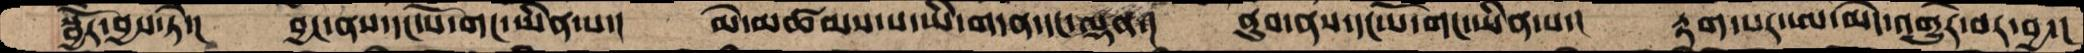སྦྱོར་བྱས་ཏེ་།  བྱང་ནས་དང་པོ་གང་ཡིན་པ་།  མེ་མཚམས་ས་ཡི་གདན་དང་ལྡན་།  ནུབ་ནས་དང་པོ་གང་ཡིན་པ་།  རྟག་པར་ཨ་མེད་འགྱུར་བར་བྱ་།
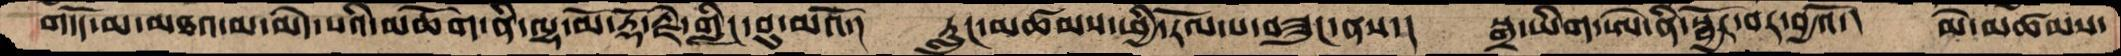གདོད་མ་མཐའ་མ་མེད་པའི་མཆོག་ནི་ལྷ་མོ་རྡོ་རྗེ་གླིང་བུ་མའོ་། རླུང་མཚམས་ཕྱི་རོལ་ས་བཟུང་ནས་།  སྒྲ་ཡིག་ཨེ་ནི་སྦྱོར་བར་བྱའོ་།  མེ་མཚམས་
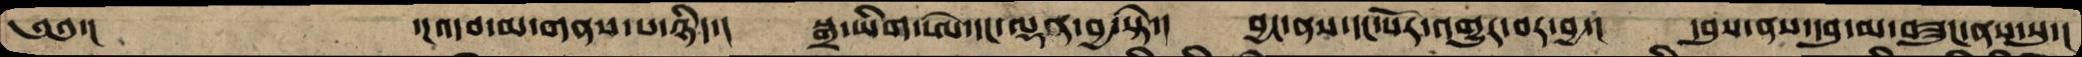༄༅་།     ་།འདབ་མ་གནས་པ་ཉིད་།  སྒྲ་ཡིག་ཨེ་དང་ལྡན་བྱ་སྟེ་།  བྱང་ནས་དང་པོར་འགྱུར་བར་བྱ་།  དབུས་ནས་དབུ་མ་བཟུང་ནས་སུ་།
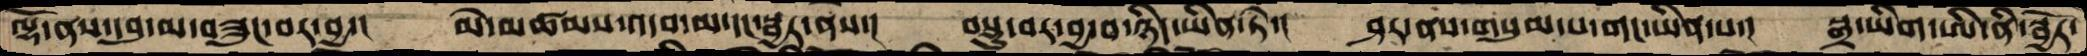ལྷོ་ནས་དབུ་མ་བཟུང་བར་བྱ་།  མེ་མཚམས་འདབ་མ་དང་སྦྱར་ནས་།  བསྡུ་བར་བྱ་བ་ཉིད་ཡིན་ཏེ་།  ཤར་ནས་གསུམ་པ་གང་ཡིན་པ་།  སྒྲ་ཡིག་ཨི་ནི་སྦྱོར་
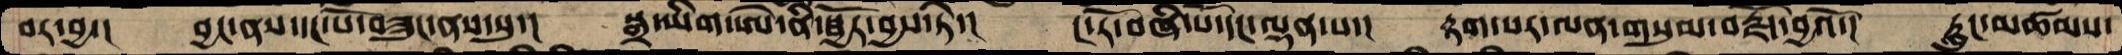བར་བྱ་།  བྱང་ནས་དང་པོ་བཟུང་ནས་སུ་།  སྒྲ་ཡིག་ཨེ་ནི་སྦྱོར་བྱས་ཏེ་།  ང་རོ་བཞི་པོ་དང་ལྡན་པ་།  རྟག་པར་ལན་གསུམ་བརྗོད་བྱའོ་།  རླུང་མཚམས་
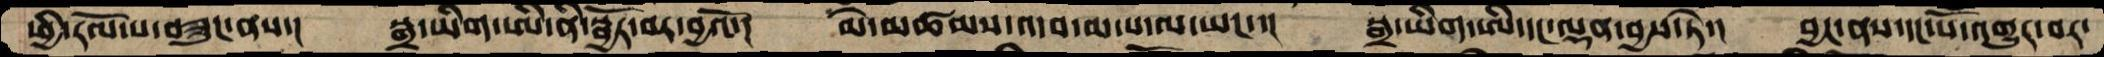ཕྱི་རོལ་ས་བཟུང་ནས་།  སྒྲ་ཡིག་ཨི་ནི་སྦྱོར་བར་བྱའོ་།  མེ་མཚམས་འདབ་མ་ས་ལ་ཡང་་།  སྒྲ་ཡིག་ཨི་དང་ལྡན་བྱས་ཏེ་།  བྱང་ནས་དང་པོ་འགྱུར་བར་
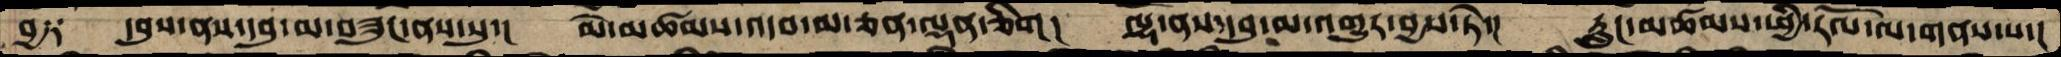བྱ༑  དབུས་ནས་དབུ་མ་བཟུང་ནས་སུ་།  མེ་མཚམས་འདབ་མ་ཅན་ལྷན་ཅིག།  ལྷོ་ནས་དབུ་མ་འགྱུར་བྱས་ཏེ་།  རླུང་མཚམས་ཕྱི་རོལ་ལ་གནས་པ་།
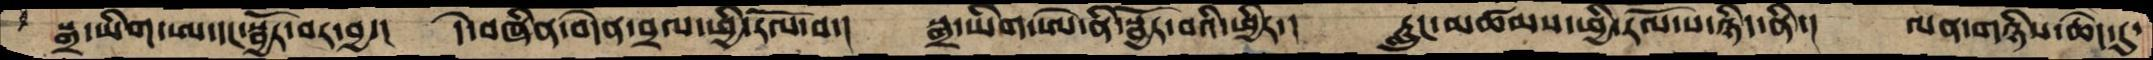སྒྲ་ཡིག་ཨ་དང་སྦྱོར་བར་བྱ་།  དེ་བཞིན་བདེན་བྲལ་ཕྱི་རོལ་བ་།  སྒྲ་ཡིག་ཨེ་ནི་སྦྱོར་བའི་ཕྱིར་།  རླུང་མཚམས་ཕྱི་རོལ་པ་ཉིད་ནི་།  ལན་གཉིས་ཆེད་དུ་
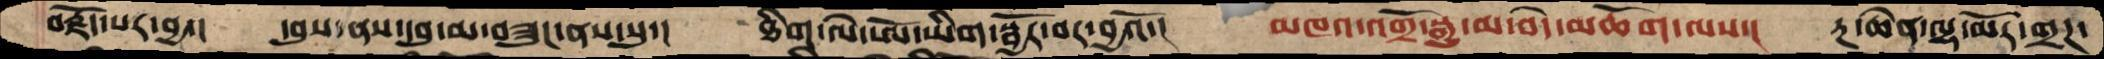བརྗོད་པར་བྱ་།  དབུས་ནས་དབུ་མ་བཟུང་ནས་སུ་།  ཐིག་ལེ་ཨོ་ཡིག་སྦྱོར་བར་བྱའོ་།  མཁའ་འགྲོ་སྒྱུ་མ་བདེ་མཆོག་ལས་།  རྔ་ཆེན་ལྷ་མོར་གྲཌ་
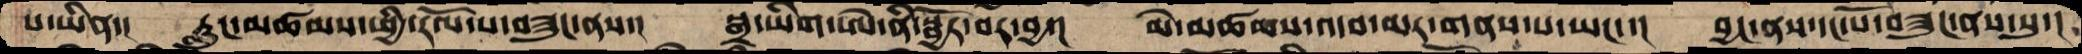པ་ཡིན་།  རླུང་མཚམས་ཕྱི་རོལ་ས་བཟུང་ནས་།  སྒྲ་ཡིག་ཨེ་ནི་སྦྱོར་བར་བྱ་།  མེ་མཚམས་འདབ་མར་གནས་པ་ཡང་་།  བྱང་ནས་དང་པོ་བཟུང་ནས་སུ་།
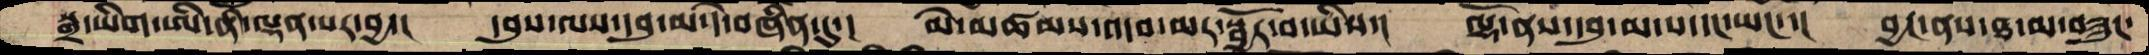སྒྲ་ཡིག་ཨི་ནི་ལྡན་པར་བྱ་།  དབུས་ལས་དབུ་མ་དེ་བཞིན་དུ་།  མེ་མཚམས་འདབ་མར་སྦྱོར་བ་ཡིས་།  ལྷོ་ནས་དབུ་མ་པ་དང་ཡང་་།  བྱང་ནས་ཐ་མ་བཟུང་
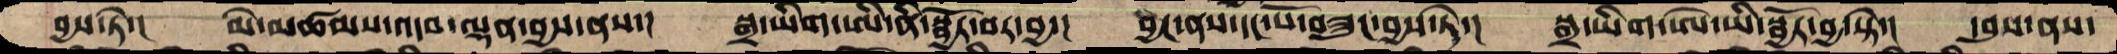བྱས་ཏེ་།  མེ་མཚམས་འདབ་ལྡན་བྱས་ནས་།  སྒྲ་ཡིག་ཨི་ནི་སྦྱོར་བར་བྱ་།  བྱང་ནས་དང་པོ་བཟུང་བྱས་ཏེ་།  སྒྲ་ཡིག་ཨེ་ཡི་སྦྱོར་བྱ་སྟེ་།  དབུས་ནས་
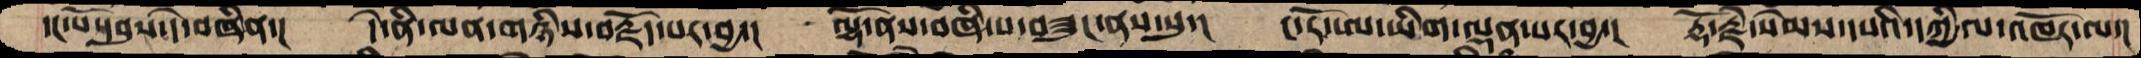དང་པོ་དབུས་དེ་བཞིན་།  དེ་ནི་ལན་གཉིས་བརྗོད་པར་བྱ་།  ལྷོ་ནས་བཞི་པ་བཟུང་ནས་སུ་།  ང་རོ་ཨ་ཡིག་ལྡན་པར་བྱ་།  རྡོ་རྗེ་སེམས་དཔའི་དཀྱིལ་འཁོར་ལ་།
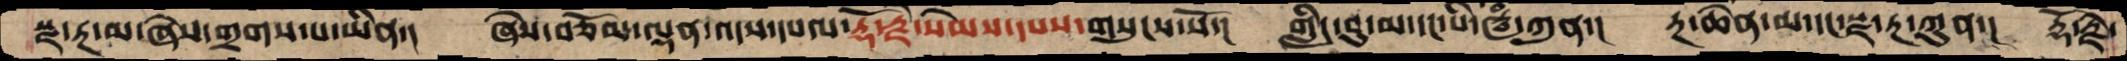སྫ་རྔ་མ་ཞེས་གྲགས་པ་ཡིན་།  ཞེས་བཅོམ་ལྡན་འདས་དཔལ་་རྡོ་རྗེ་སེམས་དཔས་གསུངས་སོ་།  གླིང་བུ་མ་དང་པི་ཝཾ་ཀུན་།  རྔ་ཆེན་མ་དང་སྫ་རྔ་ཀུན་།  རྡོ་རྗེ་
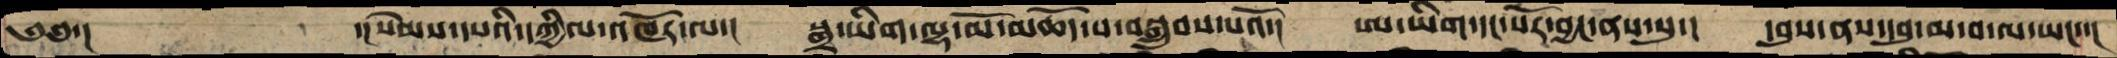༄༅་།     ་།སེམས་དཔའི་དཀྱིལ་འཁོར་ལ་།  སྒྲ་ཡིག་ལྷ་མོ་མཆོད་པ་བསྒྲུབས་པའོ་།  ཨ་ཡིག་དང་པོར་བྱང་ནས་སུ་།  དབུས་ནས་དབུ་མ་བ་ལ་ཡང་་།
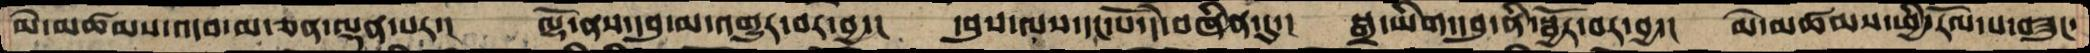མེ་མཚམས་འདབ་མ་ཅན་ལྡན་པར།  ལྷོ་ནས་དབུ་མ་འགྱུར་བར་བྱ་།  དབུས་ལས་དང་པོ་དེ་བཞིན་དུ་།  སྒྲ་ཡིག་དབུ་ནི་སྦྱོར་བར་བྱ་།  མེ་མཚམས་ཕྱི་རོལ་ས་བཟུང་
